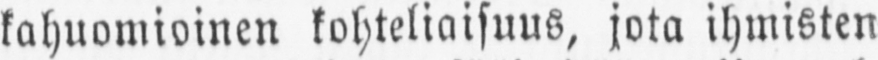kahuomioinen kohteliaisuus, jota ihmisten
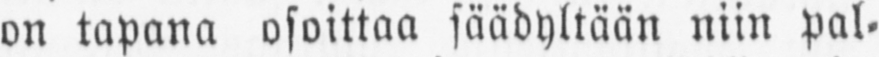on tapana osoittaa säädyltään niin pal-
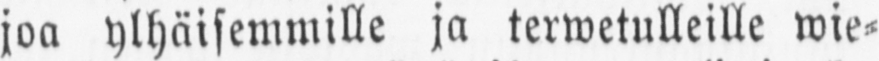joa ylhäisemmille ja terwetulleille wie-
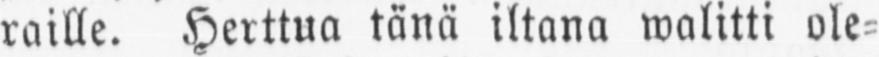raille. Herttua tänä iltana walitti ole-
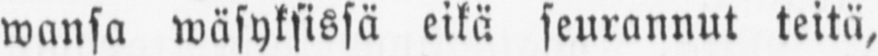wansa wäsyksissä eikä seurannut teitä,
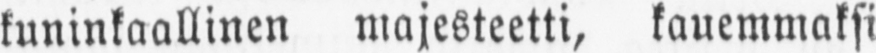kuninkaallinen majesteetti, kauemmaksi
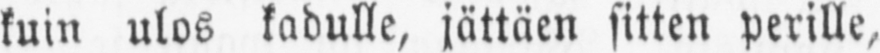kuin ulos kadulle, jättäen sitten perille,
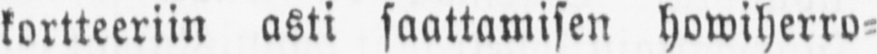kortteeriin asti saattamisen howiherro-
